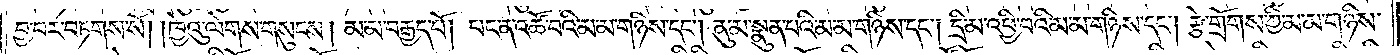བྱ་བར་བཏགས་སོ། །ཁྱེའུ་ལེགས་གསུངས། མ་མ་བརྒྱད་པོ། པང་ན་འཚོ་བའི་མ་མ་གཉིས་དང༌། ནུ་མ་སྣུན་པའི་མ་མ་གཉིས་དང༌། དྲི་མ་འཕྱི་བའི་མ་མ་གཉིས་དང༌། རྩེ་གྲོགས་ཀྱི་མ་མ་གཉིས་
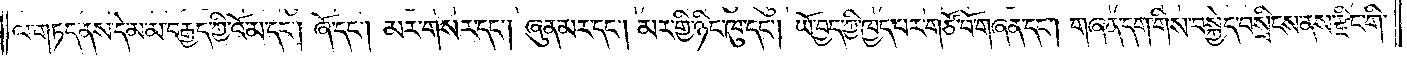ལ་གཏད་ནས་དེ་མ་མ་བརྒྱད་ཀྱི་འོ་མ་དང༌། ཞོ་དང༌། མར་གསར་དང༌། ཞུན་མར་དང༌། མར་གྱི་ཉིང་ཁུ་དང༌། ཡོ་བྱད་ཀྱི་ཁྱད་པར་གཙོ་བོ་གཞན་དང༌། གཞན་དག་གིས་བསྐྱེད་བསྲིངས་ནས་རྫིང་གི་
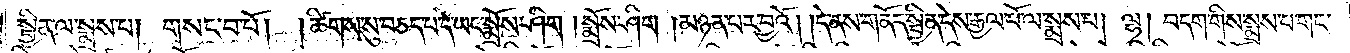སྦྱིན་ལ་སྨྲས་པ། གསང་བ་པོ། །ཚིགས་སུ་བཅད་པ་དེ་ཡང་སྨྲོས་ཤིག །སྨྲོས་ཤིག །མཉན་པར་བྱའོ། །དེ་ནས་གནོད་སྦྱིན་དེས་རྒྱལ་པོ་ལ་སྨྲས་པ། ལྷ། བདག་གིས་སྨྲས་པ་གང་
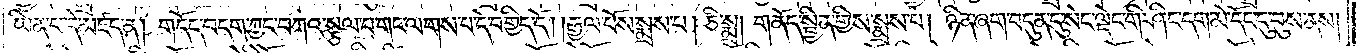ཡིན་པ་དེ་མཛད་ན། གདོད་བདག་ཀྱང་བཀའ་སྩལ་པ་གང་ལགས་པ་དེ་བགྱིད་དོ། །རྒྱལ་པོས་སྨྲས་པ། ཅི་སྨྲ། གནོད་སྦྱིན་གྱིས་སྨྲས་པ། ཉིན་ཞག་བདུན་དུ་སེང་ལྡེང་གི་ཤིང་དག་མེ་དོང་དུ་བུས་ནས།
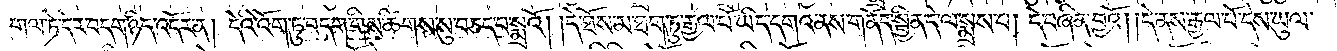གལ་ཏེ་དེར་བདག་ཉིད་འདོར་ན། དེའི་འོག་ཏུ་བདག་གིས་ཚིགས་སུ་བཅད་པ་སྨྲའོ། །དེ་ཐོས་མ་ཐག་ཏུ་རྒྱལ་པོ་ཡིད་དགའ་ནས་གནོད་སྦྱིན་དེ་ལ་སྨྲས་པ། དེ་བཞིན་བྱའོ། །དེ་ནས་རྒྱལ་པོ་དེས་ཡུལ་
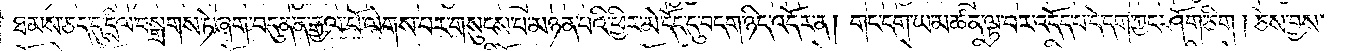ཐམས་ཅད་དུ་དྲིལ་བསྒྲགས་ཏེ་ཞག་བདུན་ན་རྒྱལ་པོ་ལེགས་པར་གསུངས་པ་མཉན་པའི་ཕྱིར་མེ་དོང་དུ་བདག་ཉིད་འདོར་ན། གང་དག་ཡ་མཚན་ལྟ་བར་འདོད་པ་དེ་དག་ཀྱང་ཤོག་ཅིག །ཅེས་བྱས་
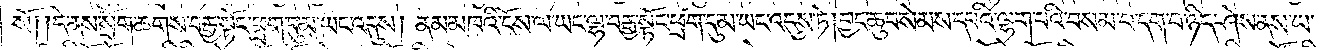སོ། །དེ་ནས་སྲོག་ཆགས་བརྒྱ་སྟོང་ཕྲག་དུ་མ་ཡང་འདུས། ནམ་མཁའི་ངོས་ལ་ཡང་ལྷ་བརྒྱ་སྟོང་ཕྲག་དུ་མ་ཡང་འདུས་ཏེ། བྱང་ཆུབ་སེམས་དཔའི་ལྷག་པའི་བསམ་པ་དག་པ་ཉིད་ཤེས་ནས་ཡ་
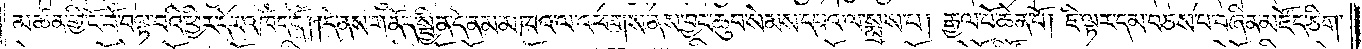མཚན་གྱི་ངོ་བོ་བལྟ་བའི་ཕྱིར་དེར་འཁོད་དོ། །དེ་ནས་གནོད་སྦྱིན་དེ་ནམ་མཁའ་ལ་འཕགས་ནས་བྱང་ཆུབ་སེམས་དཔའ་ལ་སྨྲས་པ། རྒྱལ་པོ་ཆེན་པོ། ཇི་ལྟར་དམ་བཅས་པ་བཞིན་མཛོད་ཅིག་
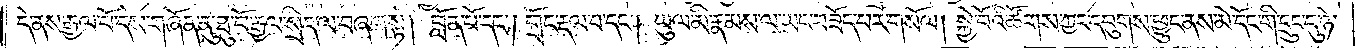དེ་ནས་རྒྱལ་པོ་དེས་གཞོན་ནུ་ཐུ་བོ་རྒྱལ་སྲིད་ལ་བཞག་སྟེ། བློན་པོ་དང༌། གྲོང་རྡལ་བ་དང༌། ཡུལ་མི་རྣམས་ལ་ཡང་བཟོད་པར་གསོལ། སྐྱེ་བོའི་ཚོགས་ཀྱང་དབུགས་ཕྱུང་ནས་མེ་དོང་གི་དྲུང་དུ་ཉེ་
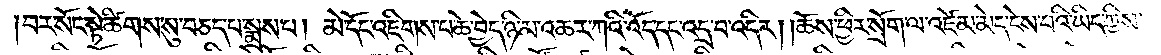བར་སོང་སྟེ་ཚིགས་སུ་བཅད་པ་སྨྲས་པ། མེ་དོང་འཇིགས་པ་ཆེ་བྱེད་ཉི་མ་འཆར་ཀའི་འོད་དང་འདྲ་བ་འདིར། །ཆོས་ཕྱིར་སྲོག་ལ་འཛེམ་མེད་ངེས་པའི་ཡིད་ཀྱིས་
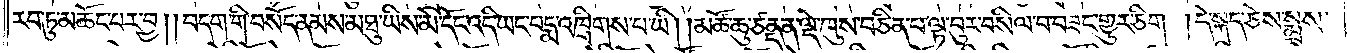རབ་ཏུ་མཆོང་པར་བྱ། །བདག་གི་བསོད་ནམས་མཐུ་ཡིས་མེ་དོང་འདི་ཡང་པདྨ་འཁྲིགས་པ་ཡི། །མཚོ་ཆུ་ཙནྡན་ལྡེ་ཁུས་བཅིན་པ་ལྟ་བུར་བསིལ་བ་བཟང་གྱུར་ཅིག །དེ་སྐད་ཅེས་སྨྲས་
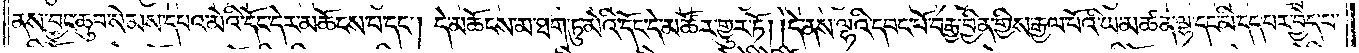ནས་བྱང་ཆུབ་སེམས་དཔའ་མེའི་དོང་དེར་མཆོངས་པ་དང༌། དེ་མཆོངས་མ་ཐག་ཏུ་མེའི་དོང་དེ་མཚོར་གྱུར་ཏོ། །དེ་ནས་ལྷའི་དབང་པོ་བརྒྱ་བྱིན་གྱིས་རྒྱལ་པོའི་ཡ་མཚན་ལྷ་དང་མི་དད་པར་བྱེད་པ་
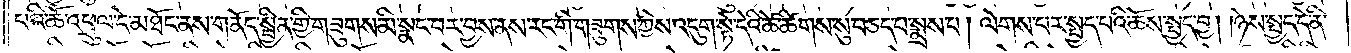པའི་ཆོ་འཕྲུལ་དེ་མཐོང་ནས་གནོད་སྦྱིན་གྱི་གཟུགས་མི་སྣང་བར་བྱས་ནས་རང་གི་གཟུགས་ཀྱིས་འདུག་སྟེ་དེའི་ཚེ་ཚིགས་སུ་བཅད་པ་སྨྲས་པ། ལེགས་པར་སྤྱད་པའི་ཆོས་སྤྱད་བྱ། །ཉེས་སྤྱད་དེ་ནི་
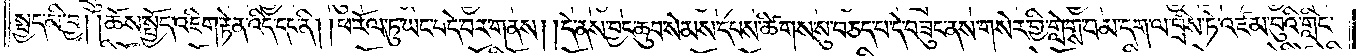སྤྱད་མི་བྱ། །ཆོས་སྤྱོད་འཇིག་རྟེན་འདི་དང་ནི། །ཕ་རོལ་ཏུ་ཡང་བདེ་བར་གནས། །དེ་ནས་བྱང་ཆུབ་སེམས་དཔས་ཚིགས་སུ་བཅད་པ་དེ་བཟུང་ནས་གསེར་གྱི་གླེགས་བམ་དག་ལ་བྲིས་ཏེ་འཛམ་བུའི་གླིང་
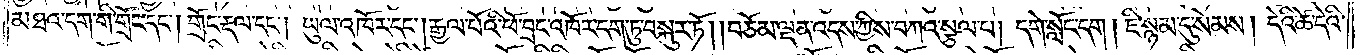མཐའ་དག་གི་གྲོང་དང༌། གྲོང་རྡལ་དང༌། ཡུལ་འཁོར་དང༌། རྒྱལ་པོའི་ཕོ་བྲང་འཁོར་དག་ཏུ་བསྐུར་ཏོ། །བཅོམ་ལྡན་འདས་ཀྱིས་བཀའ་སྩལ་པ། དགེ་སློང་དག །ཇི་སྙམ་དུ་སེམས། དེའི་ཚེ་དེའི་
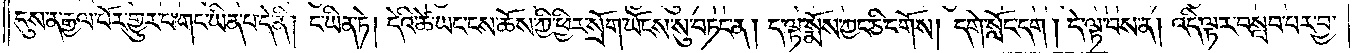དུས་ན་རྒྱལ་པོར་གྱུར་པ་གང་ཡིན་པ་དེ་ནི། ང་ཡིན་ཏེ། དེའི་ཚེ་ཡང་ངས་ཆོས་ཀྱི་ཕྱིར་སྲོག་ཡོངས་སུ་བཏང་ན། ད་ལྟ་སྨོས་ཀྱང་ཅི་དགོས། དགེ་སློང་དག །དེ་ལྟ་བས་ན། འདི་ལྟར་བསླབ་པར་བྱ་
